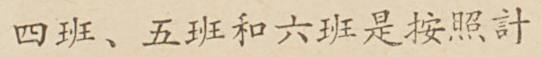四班、五班和六班是按照計
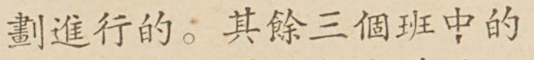劃進行的。其餘三個班中的
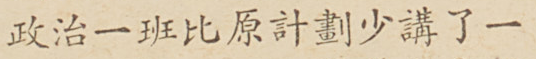政治一班比原計劃少講了一
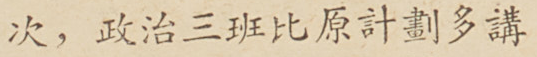次，政治三班比原計劃多講
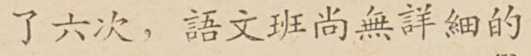了六次，語文班尚無詳細的
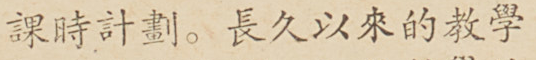課時計劃。長久以來的教學
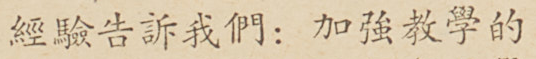經驗告訴我們：加強教學的
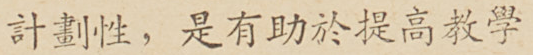計劃性，是有助於提高教學
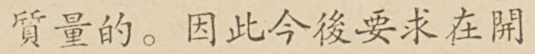質量的。因此今後要求在開
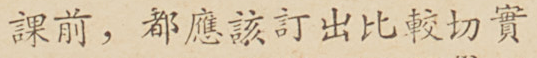課前，都應該訂出比較切實
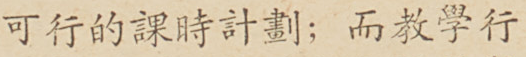可行的課時計劃；而教學行
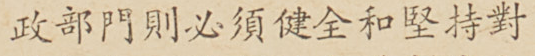政部門則必須健全和堅持對
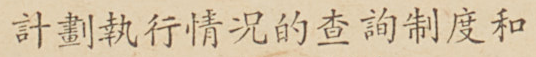計劃執行情況的查詢制度和
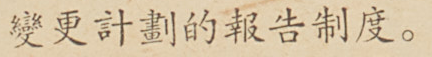變更計劃的報告制度。
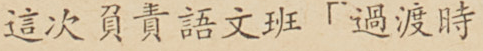這次負責語文班「過渡時
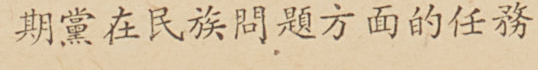期黨在民族問題方面的任務
